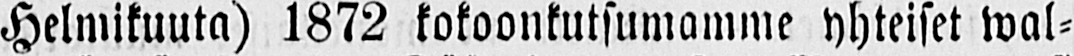Helmikuuta) 1872 kokoonkutsumamme yhteiset wal-
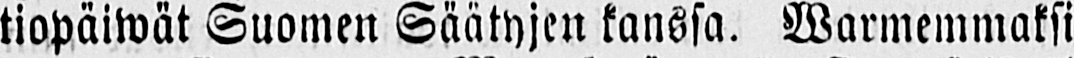tiopäiwät Suomen Säätyjen kanssa. Warmemmaksi
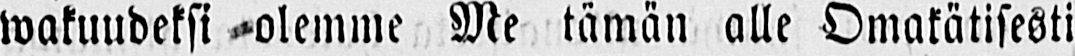wakuudeksi olemme Me tämän alle Omakätisesti
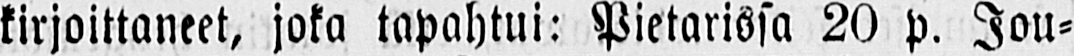kirjoittaneet, joka tapahtui: Pietarissa 20 p. Jou-
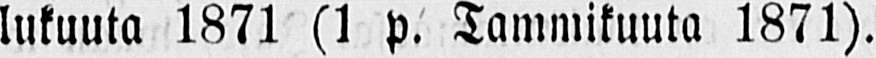lukuuta 1871 (1 p. Tammikuuta 1871).
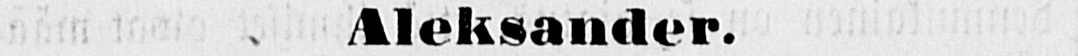Aleksander.
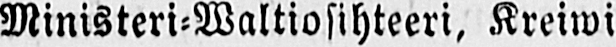Ministeri-Waltiosihteeri, Kreiwi Armfelt.
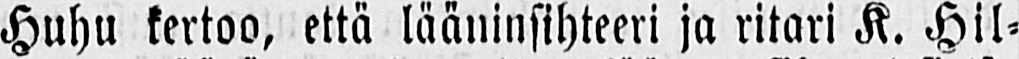Huhu kertoo, että lääninsihteeri ja ritari K. Hil-
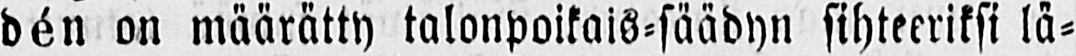dén on määrätty talonpoikais-säädyn sihteeriksi lä-
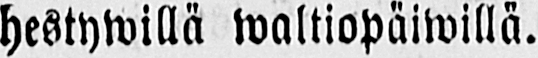hestywillä waltiopäiwillä.
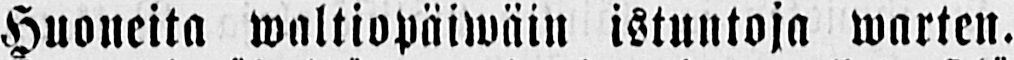Huoneita waltiopäiwäin istuntoja warten.
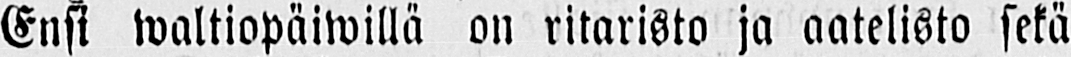Ensi waltiopäiwillä on ritaristo ja aatelisto sekä
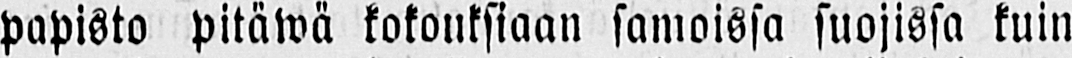papisto pitäwä kokouksiaan samoissa suojissa kuin
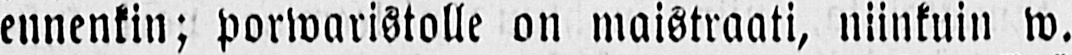ennenkin; porwaristolle on maistraati, niinkuin w.
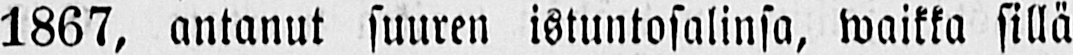1867, antanut suuren istuntosalinsa, waikka sillä
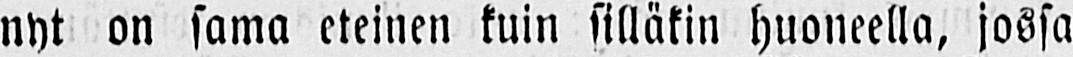nyt on sama eteinen kuin silläkin huoneella, jossa
